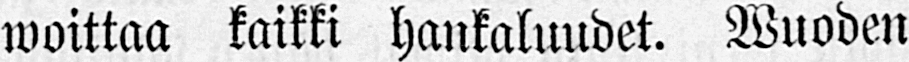woittaa kaikki hankaluuldet. Wuoden
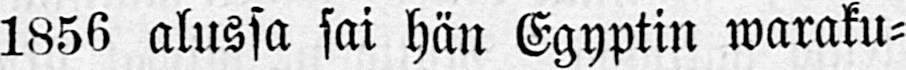1856 alussa sai hän Egyptin waraku-
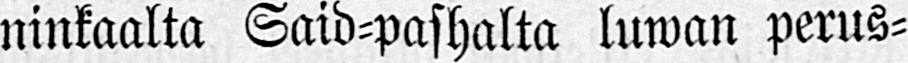ninkaalta Said-pashalta luwan perus-
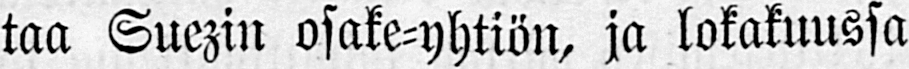taa Suezin osake-yhtiön, ja lokakuussa
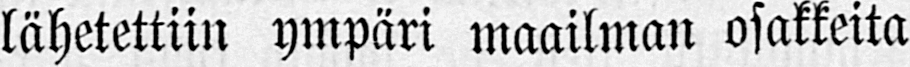lähetettiin ympäri maailman osakkeita
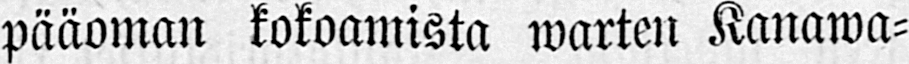pääoman kokoamista warten Kanawa-
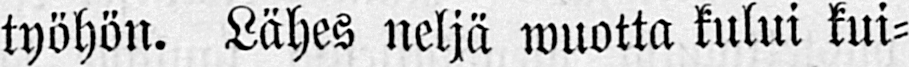työhön. Lähes neljä wuotta kului kui-
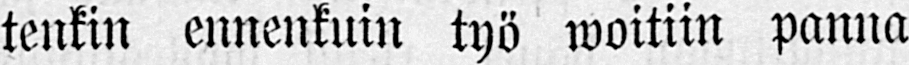tenkin ennenkuin työ woitiin panna
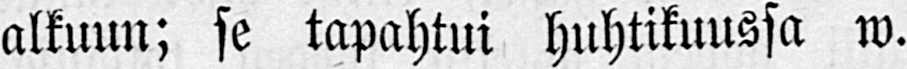alkuun; se tapahtui huhtikuussa w.
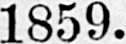1859.
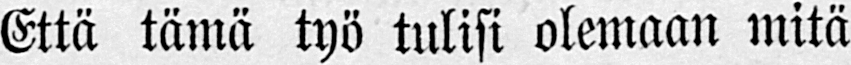Että tämä työ tulisi olemaan mitä
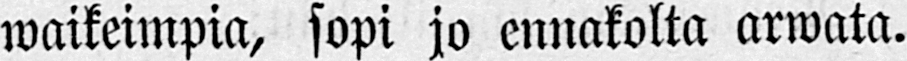waikeimpia, sopi jo ennakolta arwata.
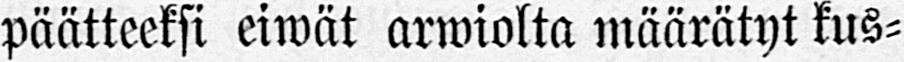päätteeksi eiwät arwiolta määrätyt kus-
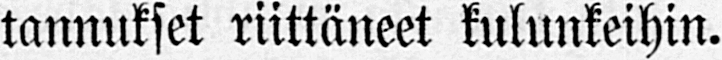tannukset riittäneet kulunkeihin.
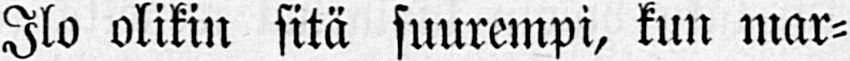Ilo olikin sitä suurempi, kun mar-
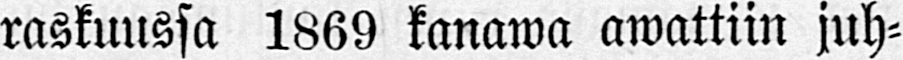raskuussa 1869 kanawa awattiin juh-
